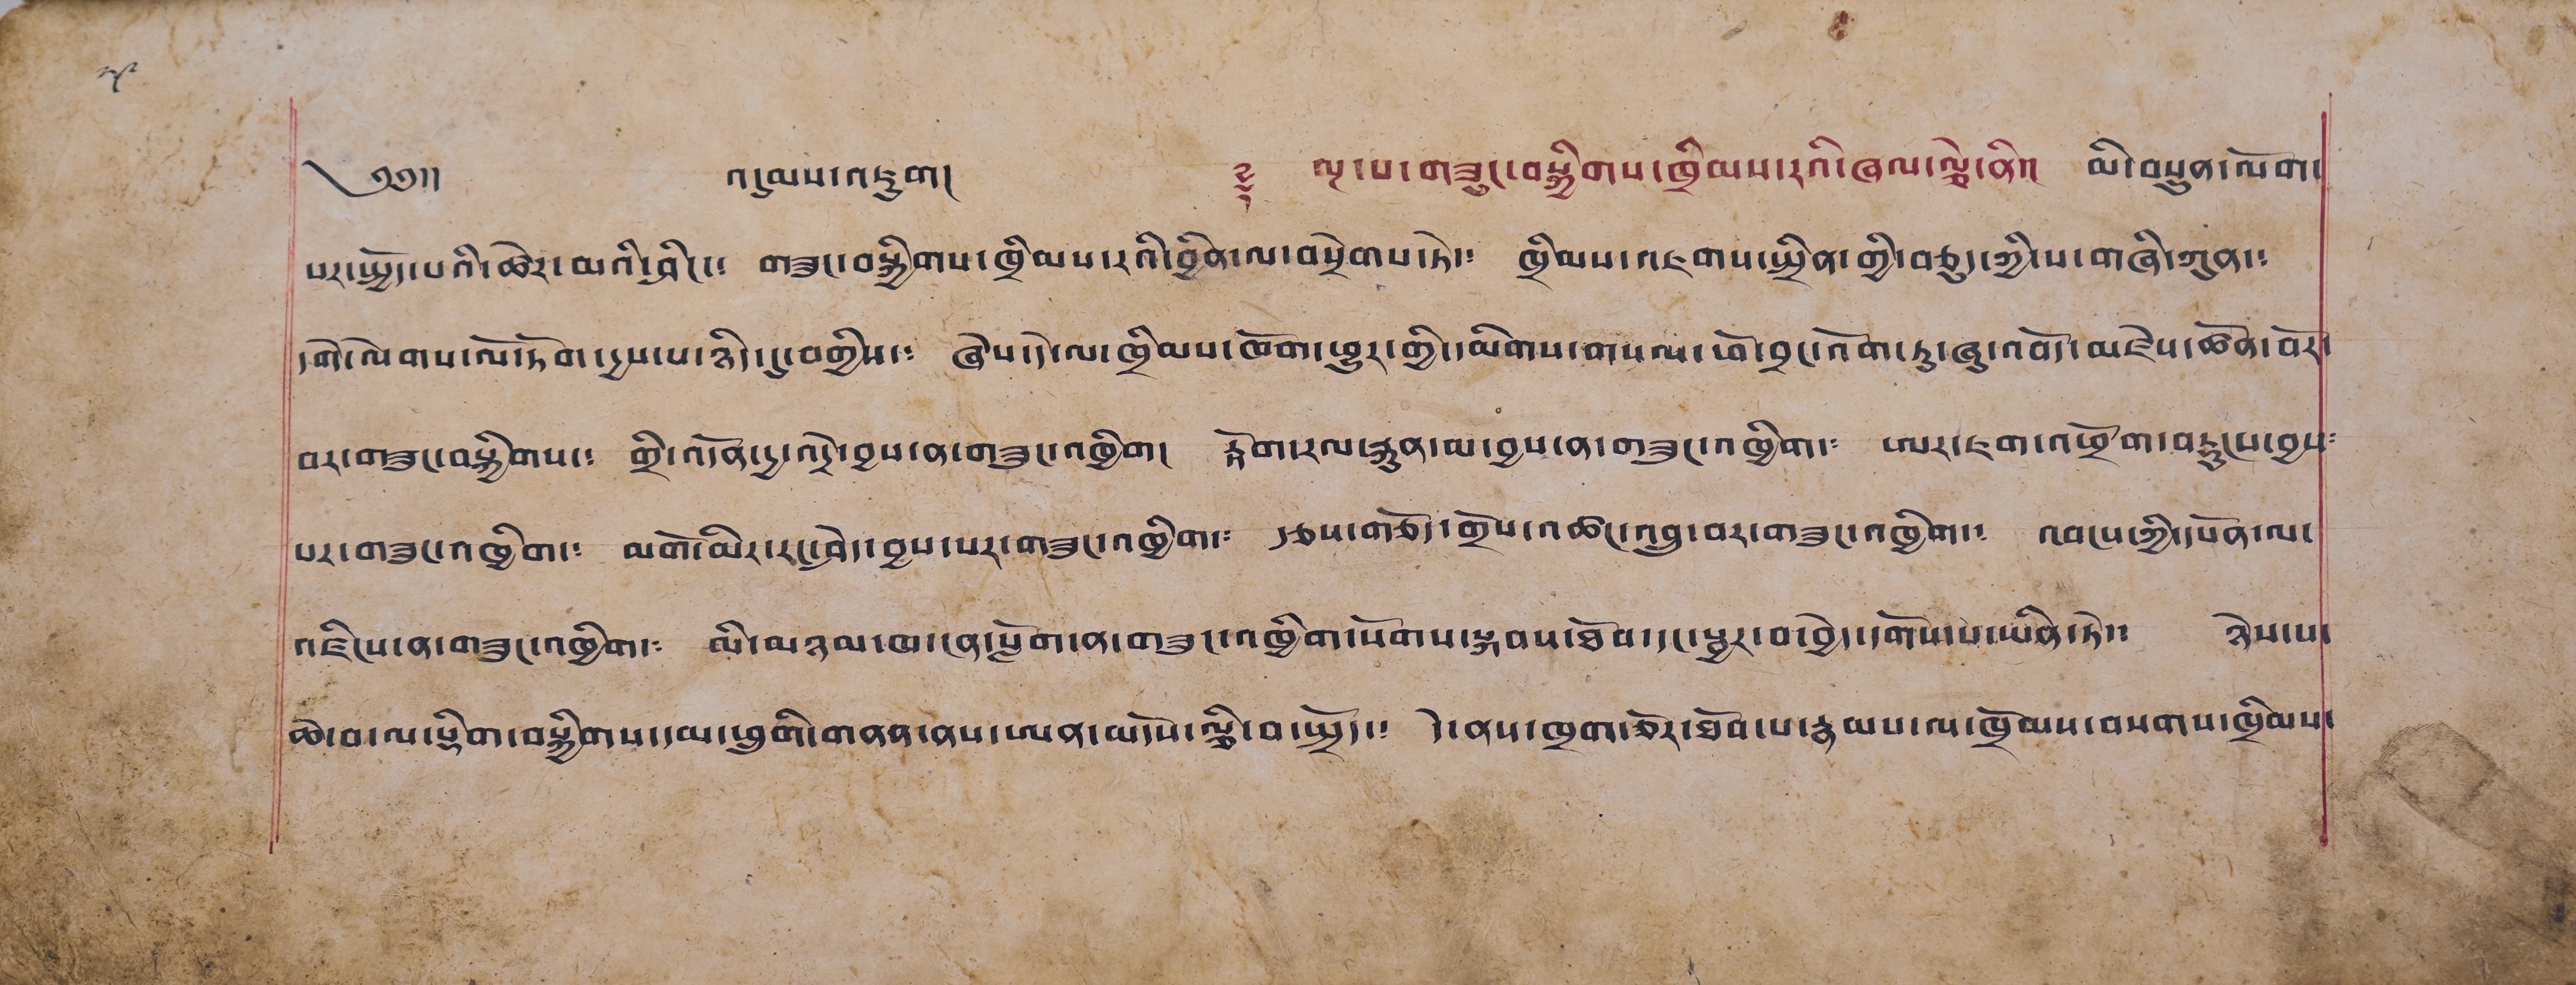༢༩
༄༅།། འདུམས་འཇུག། ༈ ལྔ་པ་གཟུང་བསྐྱིགས་ཁྲིམས་རའི་ཞལ་ལྕེ་ནི་། མི་བསྲུན་ལོག་
པར་སྤྱོད་པའི་ཚེར་མའི་ཤིང་༴ གཟུང་བསྐྱིགས་ཁྲིམས་རའི་བྱིན་ལ་བསྲེགས་ཏེ་༴ ཁྲིམས་འཇགས་སྤྲིན་གྱི་བཅུད་ཀྱི་ས་གཞི་ཀུན་༴
དགེ་ལེགས་ལོ་ཏོག་དྱས་པ་ཉིད་དུ་བགྱིས་༴ ཞེས་དེ་ལ་ཁྲིམས་ཁོག་ཕྱུར་གྱི་དམིགས་གསལ་ཕོ་བྲང་འོག་ཏུ་ཞུ་འབོད་མཛེས་ཚོན་བོར་
བར་གཟུང་བསྐྱིགས་༴ གྲི་འདོན་དྱ་འདྲེ་བྱས་ན་གཟུང་འཁྱིག། རྟོག་རལ་རྐུན་མ་བྱས་ན་གཟུང་འཁྱིག་༴ ཨར་ཇག་འཕྲོག་བརྡུངས་བྱས༴
པར་གཟུང་འཁྱིག་༴ མགོ་མིར་རང་ཤེད་བྱས་པར་གཟུང་འཁྱིག་༴ རྩས་གཅོད་གྲོས་འཚང་འབྲུ་བར་གཟུང་འཁྱིག་༴ འབངས་ཀྱི་དཔོན་ལ་
འཇིངས་ན་གཟུང་འཁྱིག་༴ མི་མཉམ་ཁ་ངན་སློག་ན་གཟུང་འཁྱིག་སོགས་སྐབས་ཐོབ་དང་སྦྱར་བ་བྱེད་དགོས་པ་ཡིན་ཏེ་༴ ཉེས་པ་
ཆེ་བ་ལ་སྡིག་བསྐྱིགས་དམ་ཕྲུགི་གནན་ནས་ཨན་མདོས་ལྕི་བ་སྤྲོད་༴ དེ་ནས་ཁྲག་ཅོར་ཐོབ་པ་རྣམས་ལ་ཁྲོམས་བསགས་ཁྲིམས་
